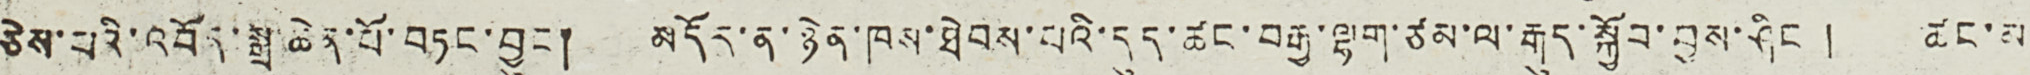ཅེས་པའི་འབོད་སྒྲ་ཆེན་པོ་བཏང་བྱུང ། མདོར་ན་ཉེན་ཁས་ཐེབས་པའི་དུད་ཚང་བརྒྱ་ལྷག་ཙམ་ལ་རྒུད་སྐྱོབ་བྱས་ཤིང ། ཚང་མ་
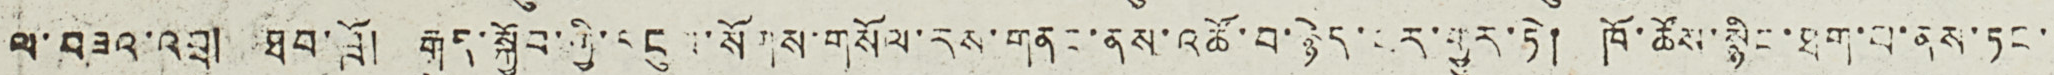ལ་བཟའ་འབྲུ། ཐབ་ཁྲོ། རྒུད་སྐྱོབ་གྱི་དངུལ་སོགས་གསོལ་རས་གནང་ནས་འཚོ་བ་རྙེད་པར་གྱུར་ཏེ། ཁོ་ཚོས་སྙིང་ཐག་པ་ནས་ཏང་་
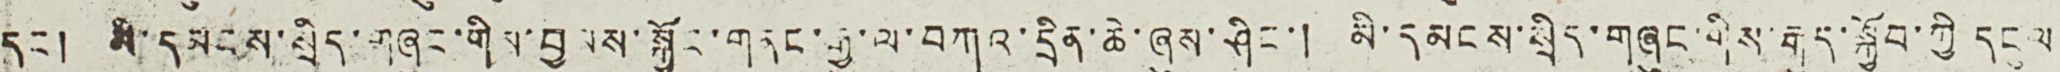དང ། མི་དམངས་སྲིད་གཞུང་གིས་བྱམས་སྐྱོང་གནང་རྒྱུ་ལ་བཀའ་དྲིན་ཆེ་ཞུས་ཤིང་། མི་དམངས་སྲིད་གཞུང་གིས་རྒུད་སྐྱོབ་ཀྱི དངུལ
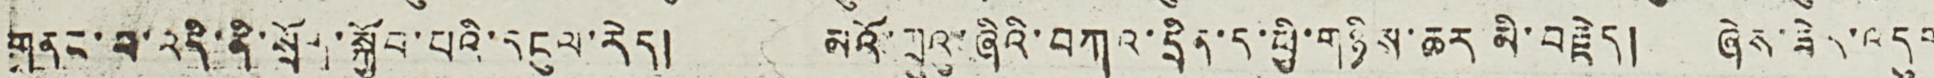གནང་བ་འདི་ནི་སྲོག་སྐྱོབ་པའི་དངུལ་རེད། མའོ་ཀྲུའུ་ཞིའི་བཀའ་དྲིན་ད་ཕྱི་གཉིས་ཆར མི་བརྗེད། ཞེས་ཟེར་འདུག
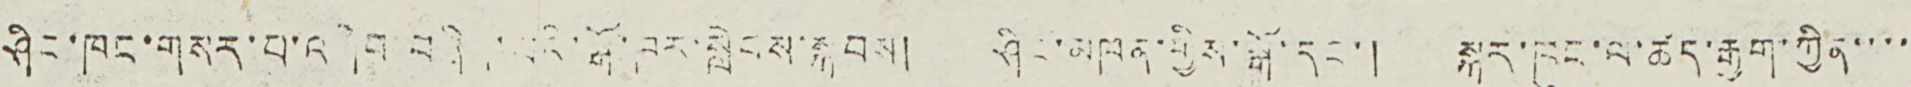ཤིང་ཁང་གསར་པའི་འཞིབ་བཞིག་པའི་སྒོ་ཁར་སླེབས་སྐབས། ཤིང་མཁན་གྱིས་སྒོ་དང་། སྐར་ཁུང་ལ་ཚད་རྒྱག་ཀྱིན་་་་
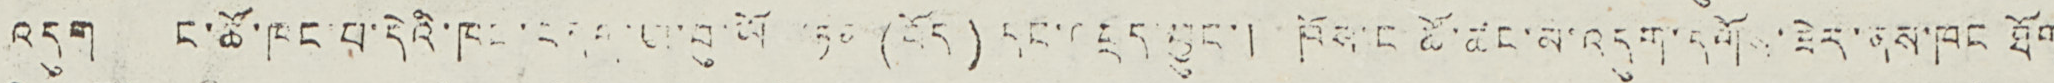འདུག ང་ཚོ་ཁང་པ་དེའི་ཁང་བདག་ཨ་བུ་ཡོ ་ཏ (བོད) དང་འཕྲད་བྱུང་། ཁོས་ང་ཚོ་ཚང་མ་འདུག་དགོས་ཟེར་ནས་ཁང ཐོག
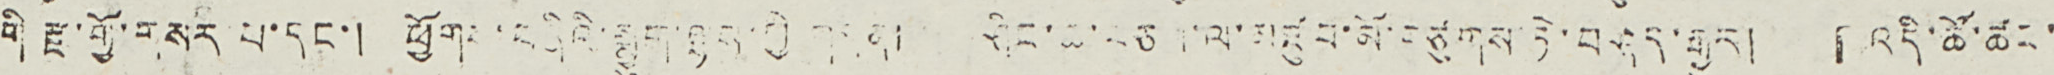གི རྫ་གྱོ་གསར་པ་དང་། ཕྱོགས་བཞིའི་སྨྱུག་ལྷས་གྱི་གནས། ཤིང་ཆ་བཅས་ལ་མཛུབ་མོ་བཙུགས་ཏེ་བཤད་རྒྱུར། 『འདི་ཚོ་ཚང་
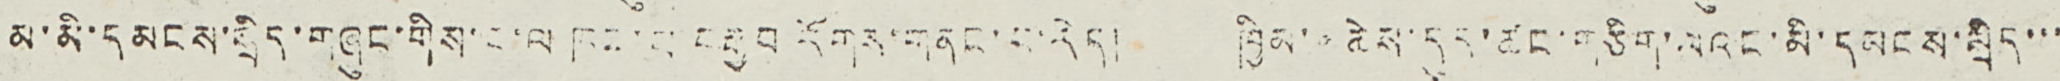མ་མི་དམངས་སྲིད་གཞུང་གིས་ང་ལ་ཁང་པ་བརྒྱབ་རོགས་གནང་བ་རེད། ཁྱིམ་ ཆེས་དུར་ཚང་གཅིག་ལའང་མི་དམངས་སྲིད་་་
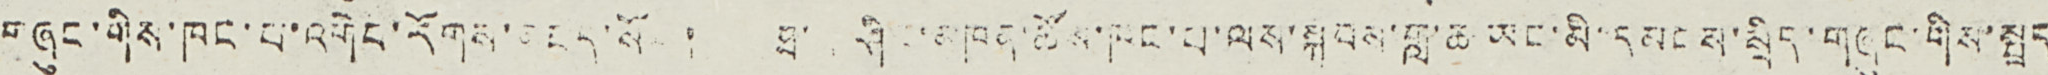གཞུང་གིས་ཁང་པ་འགེབ་རོགས་འཇད་སོང་། ཐ ཤིང་མཁན་ཚོས་ཁང་པ་ལས་སྐབས་གླ་ཆ་ཡང་མི་དམངས་སྲིད་གཞུང་གིས་སྤྲད
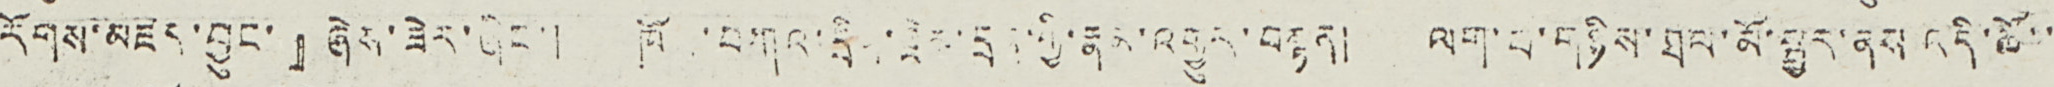རོགས་མཛད་བྱུང་』ཞེས་ཟེར་ཞིང་། ཁོ ་བཀའ་དྲིན་རྗེས་དྲན་གྱི་རྣམ་འགྱུར་བསྟན། ལག་པ་གཉིས་ཐལ་མོ་སྦྱར་ནས འདི་ཚོ་་
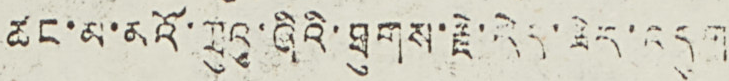ཚང་མ་མའོ་ཀྲུའུ་ཞིའི་ཐུགས་རྗེ་རེད་ཟེར་འདུག
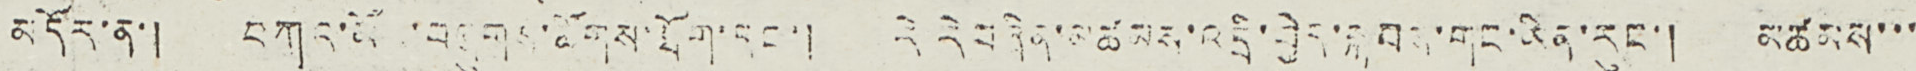མདོར་ན་། བཀའ་མོ ་བཞུགས་ཚོགས་ཐོག་དང་། རེ རེ བཞིན་མཚམས་འདྲི་བྱེད་སྐབས་གང་ཡིན་རུང་། མཚམས་་་
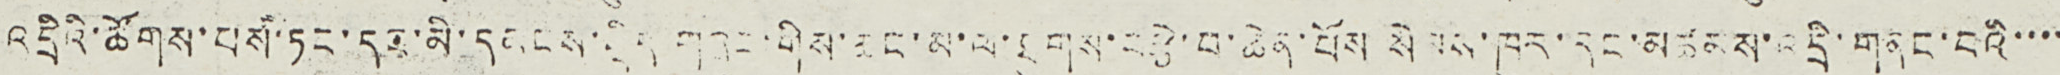འདྲིའི་ཚོགས་པས་ཏང་དང་མི་དབངས་སྲིད་གཞུང་གིས་ཆང་མ་ལ་ཐུགས་བརྩེ་བ་ཆེན་པོས་སེམས་ཁུར་དང་མཚམས་འདྲི་གནང་བའི་་་་
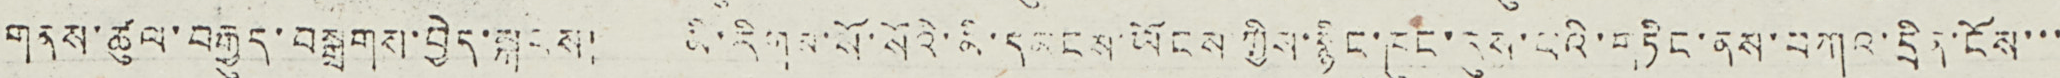གནས་ཚུལ་བརྒྱུད་བསྒྲགས་བྱེད་སྐབས། མི་རིགས་སོ་སོའི་མི་དམངས་ཡོངས་ཀྱིས་སྙིང་ཁུང་རུས་པའི་གཏིང་ནས་བཀའ་དྲིན་ངོས་་་
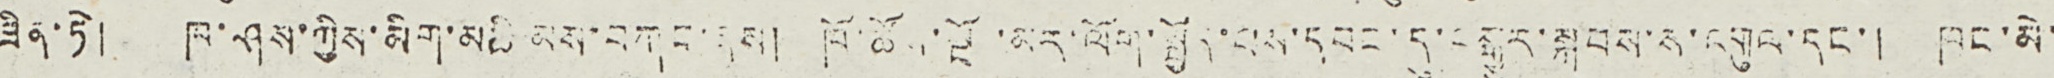ཟིན་ཏེ། ཁ་ཤས་ཀྱིས་མིག་མཆིམས་བཀང་ནས། ཁོ་ཚོས་སྔོ་མར་ལོག་སྦྱོར་པས་དབང་དུ་བསྒྱུར་སྐབས་ས་འགུལ་དང་། ཁང་མེ་
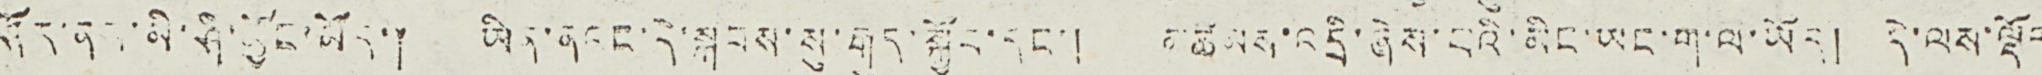ཤོར་ནས་མི་ཤི་མྱོང་ཡོད་། ཡིན་ནའང་དེ་སྐབས་སུ་རྒུད་སྐྱོང་དང་། མཚམས་འདྲི་ཞེས་པའི་མིང་ཡང་ག་ལ་ཡོད། དེ་ལས་ལྡོག
